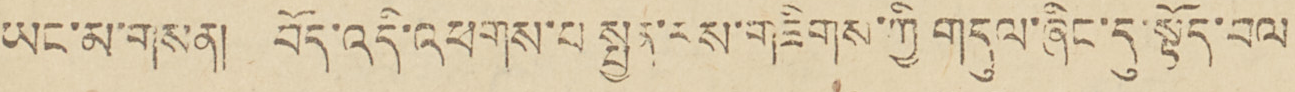ཡང་མ་གསན། བོད་འདི་འཕགས་པ་སྤྱན་རས་གཟིགས་ཀྱི་གདུང་ཞིང་དུ་སྟོད་བལ
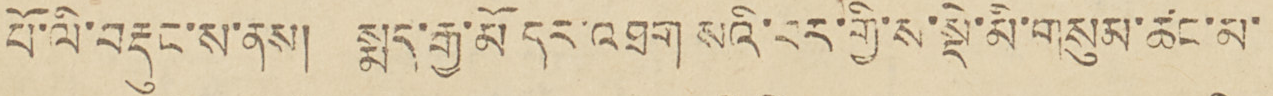པོ་ལི་བརྡུང་ས་ནས། སྨད་རྒྱ་མོ དར་འཐག སའི་བར་གྱིས་སྡེ་མི་གསུམ་ཚང་མ་
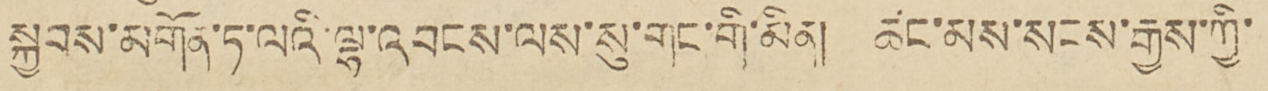སྐྱབས་མགོན་ཏ་ལའི་ལྷ་འབངས་ལས་སུ་གང་གི་མིན། ཚང་མས་སངས་རྒྱས་ཀྱི་
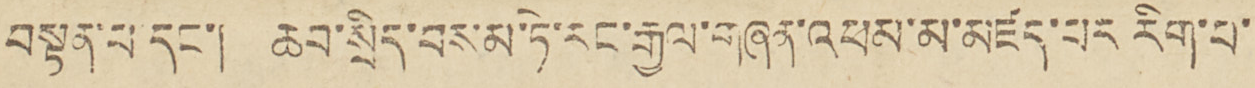བསྟན་པ་དང་། ཆབ་སྲིད་བསམ་ཏེ་རང་རྒྱལ་གཞན་འཕམ་མ་མཛད་པར རིག་པ་
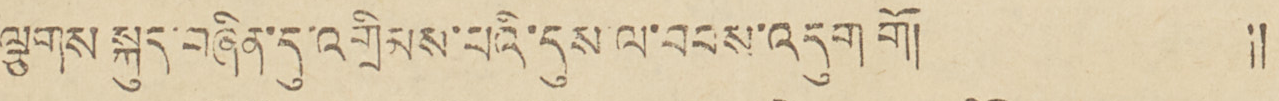ལྕགས སྐུད་བཞིན་དུ་འགྲིམས་པའི་དུས་ལ་བབས་འདུག གོ། །།
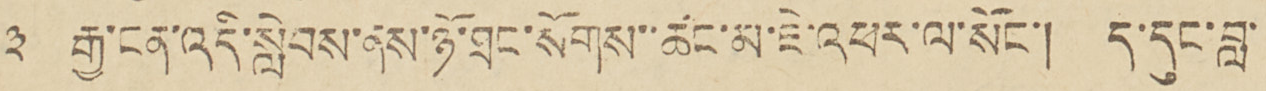༣ རྒྱ་ངན་འདི་སླེབས་ནས་ཉོ་ཐང་སོགས་ཚང་མ་ཇེ་འཕར་ལ་སོང་། ད་དུང་བླ་
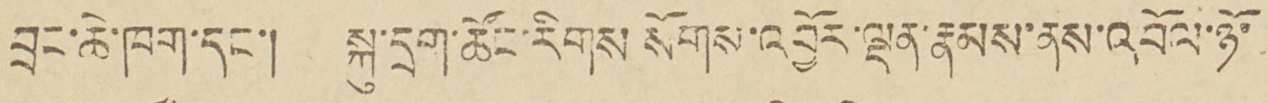བྲང་ཆེ་ཁག་དང་། སྐུ་དྲག་ཚོང་རོགས སོགས་འབྱོར་ལྡན་རྣམས་ནས་འབོལ་ཉོ་
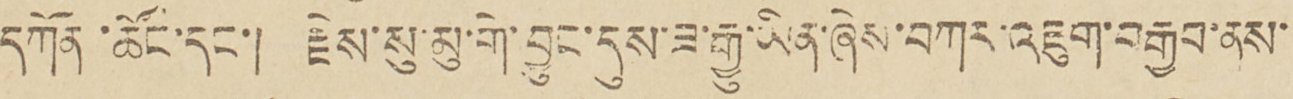དཀོན་ཚོང་དང་། རྗེས་སུ་མུ་གེ་བྱུང་དུས་ཟ་རྒྱུ་ཡིན་ཞེས་བཀར་འཇུག་བརྒྱག་ནས་
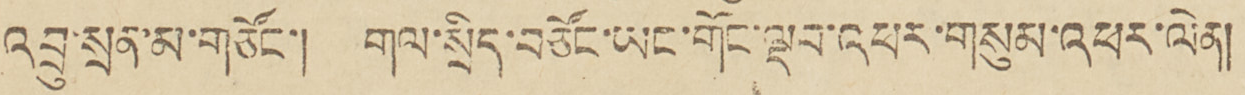འབྲུ་སྲན་མ་གཙོང་། གལ་སྲིད་བཙོང་ཡང་གོང་ལྡབ་འཕར་གསུམ་འཕར་ལེན།
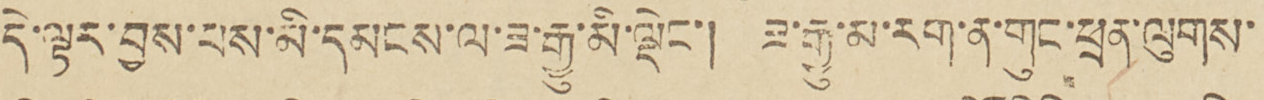དེ་ལྟར་བྱས་པས་མི་དམངས་ལ་ཟ་རྒྱུ་མི་ལྡེང་། ཟ་རྒྱུ་མ་རག་ན་གུང་ཕྲན་ལུགས་
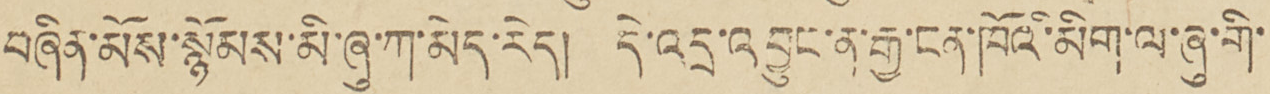བཞིན་མོས་སྙོམས་མི་ཞུ་ཀ་མེད་རེད། དེ་འདྲ་འབྱུང་ན་རྒྱ་ངན་ཁོའི་མིག་ལ་ཞུ་གི་
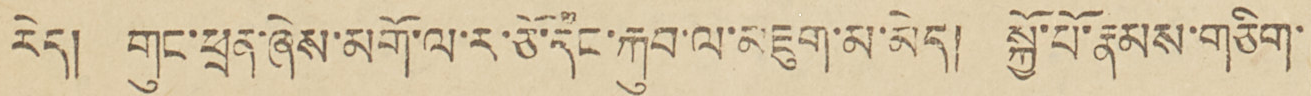རེད། གུང་ཕྲན་ཞེས་མགོ་ལ་ར་ཅོ་དང་རྐུབ་ལ་མཇུག་མ་མེད། སྐྱོ་པོ་རྣམས་གཅིག་
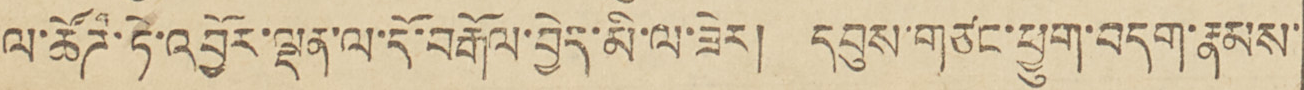ལ་ཚོཌ་ཏེ་འབྱོར་ལྡན་ལ་དོ་བརྒོལ་བྱེད་མི་ལ་ཟེར། དབུས་གཙང་ཕྱུག་བདག་རྣམས་
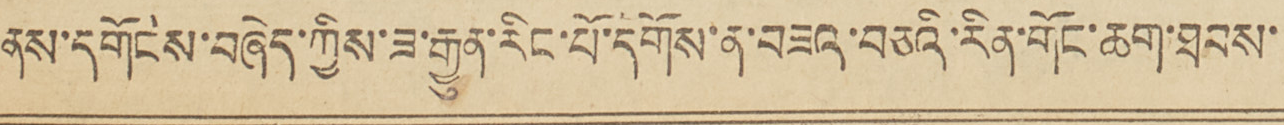ནས་དགོངས་བཞེད་ཀྱིས་ཟ་རྒྱུན་རིང་པོ་དགོས་ན་བཟའ་བཅའི་རིན་གོང་ཆག་ཐབས་
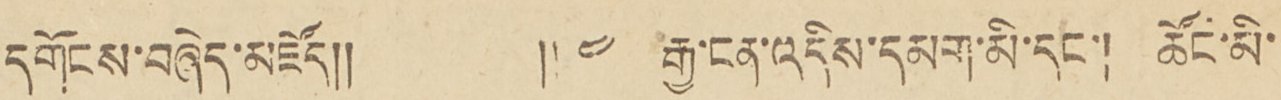དགོངས་བཞེད་མཛོད།། །། ༤ རྒྱ་ངན་འདིས་དམག་མི་དང་། ཚོང་མི་
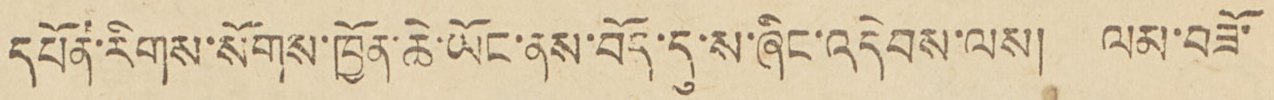དཔོན་རིགས་སོགས་ཁྱོན་ཆེ་ཡོང་ནས་བོད་དུ་ས་ཞིང་འདེབས་ལས། ལམ་བཟོ་
